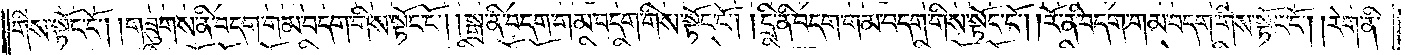གིས་སྟོང་ངོ༌། །གཟུགས་ནི་བདག་གམ་བདག་གིས་སྟོང་ངོ༌། །སྒྲ་ནི་བདག་གམ་བདག་གིས་སྟོང་ངོ༌། །དྲི་ནི་བདག་གམ་བདག་གིས་སྟོང་ངོ༌། །རོ་ནི་བདག་གམ་བདག་གིས་སྟོང་ངོ༌། །རེག་ནི་
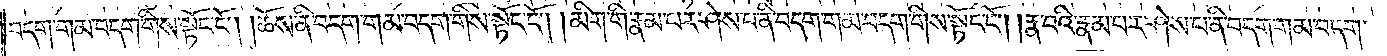བདག་གམ་བདག་གིས་སྟོང་ངོ༌། །ཆོས་ནི་བདག་གམ་བདག་གིས་སྟོང་ངོ༌། །མིག་གི་རྣམ་པར་ཤེས་པ་ནི་བདག་གམ་བདག་གིས་སྟོང་ངོ༌། །རྣ་བའི་རྣམ་པར་ཤེས་པ་ནི་བདག་གམ་བདག་
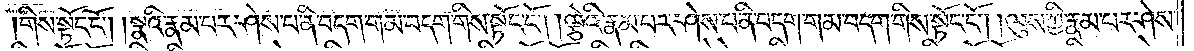གིས་སྟོང་ངོ༌། །སྣའི་རྣམ་པར་ཤེས་པ་ནི་བདག་གམ་བདག་གིས་སྟོང་ངོ༌། །ལྕེའི་རྣམ་པར་ཤེས་པ་ནི་བདག་གམ་བདག་གིས་སྟོང་ངོ༌། །ལུས་ཀྱི་རྣམ་པར་ཤེས་
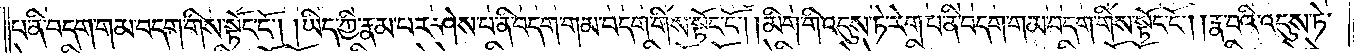པ་ནི་བདག་གམ་བདག་གིས་སྟོང་ངོ༌། །ཡིད་ཀྱི་རྣམ་པར་ཤེས་པ་ནི་བདག་གམ་བདག་གིས་སྟོང་ངོ༌། །མིག་གི་འདུས་ཏེ་རེག་པ་ནི་བདག་གམ་བདག་གིས་སྟོང་ངོ༌། །རྣ་བའི་འདུས་ཏེ་
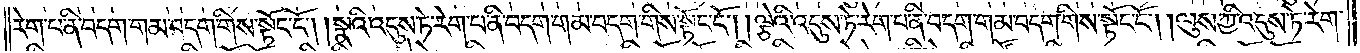རེག་པ་ནི་བདག་གམ་བདག་གིས་སྟོང་ངོ༌། །སྣའི་འདུས་ཏེ་རེག་པ་ནི་བདག་གམ་བདག་གིས་སྟོང་ངོ༌། །ལྕེའི་འདུས་ཏེ་རེག་པ་ནི་བདག་གམ་བདག་གིས་སྟོང་ངོ༌། །ལུས་ཀྱི་འདུས་ཏེ་རེག་
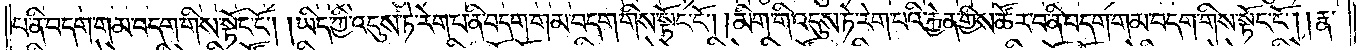པ་ནི་བདག་གམ་བདག་གིས་སྟོང་ངོ༌། །ཡིད་ཀྱི་འདུས་ཏེ་རེག་པ་ནི་བདག་གམ་བདག་གིས་སྟོང་ངོ༌། །མིག་གི་འདུས་ཏེ་རེག་པའི་རྐྱེན་གྱིས་ཚོར་བ་ནི་བདག་གམ་བདག་གིས་སྟོང་ངོ༌། །རྣ་
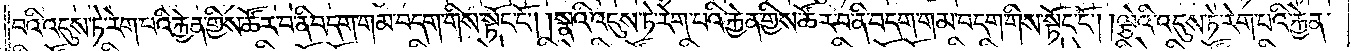བའི་འདུས་ཏེ་རེག་པའི་རྐྱེན་གྱིས་ཚོར་བ་ནི་བདག་གམ་བདག་གིས་སྟོང་ངོ༌། །སྣའི་འདུས་ཏེ་རེག་པའི་རྐྱེན་གྱིས་ཚོར་བ་ནི་བདག་གམ་བདག་གིས་སྟོང་ངོ༌། །ལྕེའི་འདུས་ཏེ་རེག་པའི་རྐྱེན་
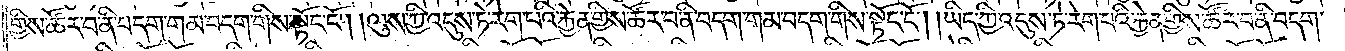གྱིས་ཚོར་བ་ནི་བདག་གམ་བདག་གིས་སྟོང་ངོ༌། །ལུས་ཀྱི་འདུས་ཏེ་རེག་པའི་རྐྱེན་གྱིས་ཚོར་བ་ནི་བདག་གམ་བདག་གིས་སྟོང་ངོ༌། །ཡིད་ཀྱི་འདུས་ཏེ་རེག་པའི་རྐྱེན་གྱིས་ཚོར་བ་ནི་བདག་
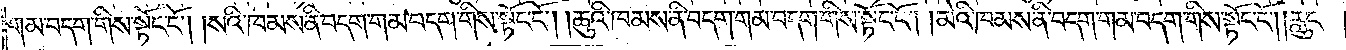གམ་བདག་གིས་སྟོང་ངོ༌། །སའི་ཁམས་ནི་བདག་གམ་བདག་གིས་སྟོང་ངོ༌། །ཆུའི་ཁམས་ནི་བདག་གམ་བདག་གིས་སྟོང་ངོ༌། །མེའི་ཁམས་ནི་བདག་གམ་བདག་གིས་སྟོང་ངོ༌། །རླུང་
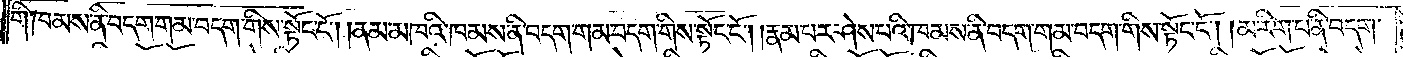གི་ཁམས་ནི་བདག་གམ་བདག་གིས་སྟོང་ངོ༌། །ནམ་མཁའི་ཁམས་ནི་བདག་གམ་བདག་གིས་སྟོང་ངོ༌། །རྣམ་པར་ཤེས་པའི་ཁམས་ནི་བདག་གམ་བདག་གིས་སྟོང་ངོ༌། །མ་རིག་པ་ནི་བདག་
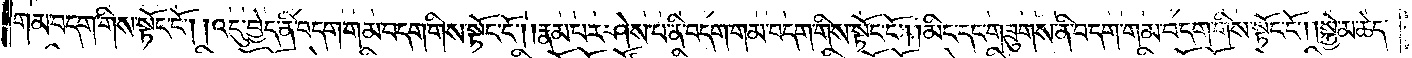གམ་བདག་གིས་སྟོང་ངོ༌། །འདུ་བྱེད་ནི་བདག་གམ་བདག་གིས་སྟོང་པའོ། །རྣམ་པར་ཤེས་པ་ནི་བདག་གམ་བདག་གིས་སྟོང་ངོ༌། །མིང་དང་གཟུགས་ནི་བདག་གམ་བདག་གིས་སྟོང་ངོ༌། །སྐྱེ་མཆེད་
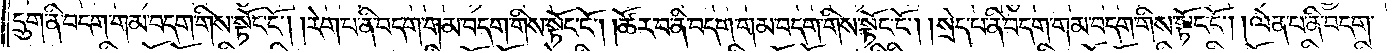དྲུག་ནི་བདག་གམ་བདག་གིས་སྟོང་ངོ༌། །རེག་པ་ནི་བདག་གམ་བདག་གིས་སྟོང་ངོ༌། །ཚོར་བ་ནི་བདག་གམ་བདག་གིས་སྟོང་ངོ༌། སྲེད་པ་ནི་བདག་གམ་བདག་གིས་སྟོང་ངོ༌། །ལེན་པ་ནི་བདག་
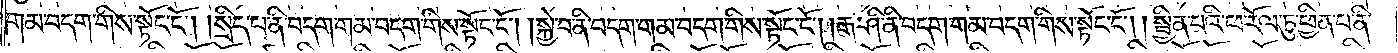གམ་བདག་གིས་སྟོང་ངོ༌། །སྲིད་པ་ནི་བདག་གམ་བདག་གིས་སྟོང་ངོ༌། །སྐྱེ་བ་ནི་བདག་གམ་བདག་གིས་སྟོང་ངོ༌། །རྒ་ཤི་ནི་བདག་གམ་བདག་གིས་སྟོང་ངོ༌། །སྦྱིན་པའི་ཕ་རོལ་ཏུ་ཕྱིན་པ་ནི་
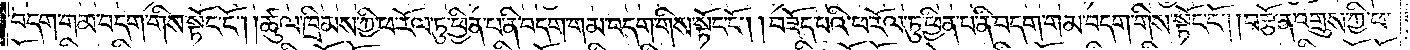བདག་གམ་བདག་གིས་སྟོང་ངོ༌། །ཚུལ་ཁྲིམས་ཀྱི་ཕ་རོལ་ཏུ་ཕྱིན་པ་ནི་བདག་གམ་བདག་གིས་སྟོང་ངོ༌། །བཟོད་པའི་ཕ་རོལ་ཏུ་ཕྱིན་པ་ནི་བདག་གམ་བདག་གིས་སྟོང་ངོ༌། །བརྩོན་འགྲུས་ཀྱི་ཕ་
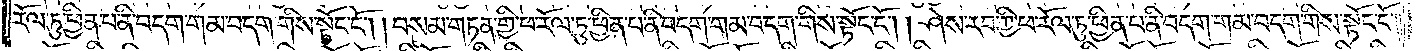རོལ་ཏུ་ཕྱིན་པ་ནི་བདག་གམ་བདག་གིས་སྟོང་ངོ༌། །བསམ་གཏན་གྱི་ཕ་རོལ་ཏུ་ཕྱིན་པ་ནི་བདག་གམ་བདག་གིས་སྟོང་ངོ༌། །ཤེས་རབ་ཀྱི་ཕ་རོལ་ཏུ་ཕྱིན་པ་ནི་བདག་གམ་བདག་གིས་སྟོང་ངོ༌༎
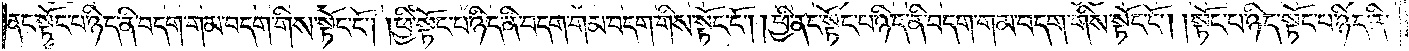ནང་སྟོང་པ་ཉིད་ནི་བདག་གམ་བདག་གིས་སྟོང་ངོ༌། །ཕྱི་སྟོང་པ་ཉིད་ནི་བདག་གམ་བདག་གིས་སྟོང་ངོ༌། །ཕྱི་ནང་སྟོང་པ་ཉིད་ནི་བདག་གམ་བདག་གིས་སྟོང་ངོ༌། །སྟོང་པ་ཉིད་སྟོང་པ་ཉིད་ནི་
